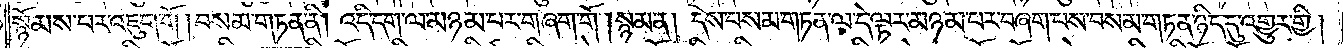སྙོམས་པར་འཇུག་གོ །བསམ་གཏན་ནི། འདི་དག་ལ་མཉམ་པར་གཞག་གོ། སྙམ་ན། དེས་བསམ་གཏན་ལ་དེ་ལྟར་མཉམ་པར་གཞག་པས་བསམ་གཏན་ཉིད་དུ་འགྱུར་གྱི།
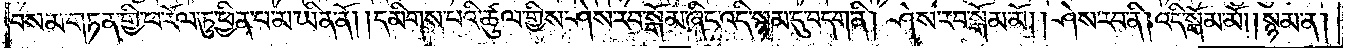བསམ་གཏན་གྱི་ཕ་རོལ་ཏུ་ཕྱིན་པ་མ་ཡིན་ནོ། །དམིགས་པའི་ཚུལ་གྱིས་ཤེས་རབ་སྒོམ་ཞིང་འདི་སྙམ་དུ་བདག་ནི། ཤེས་རབ་སྒོམ་མོ། །ཤེས་རབ་ནི། འདི་སྒོམ་མོ། །སྙམ་ན།
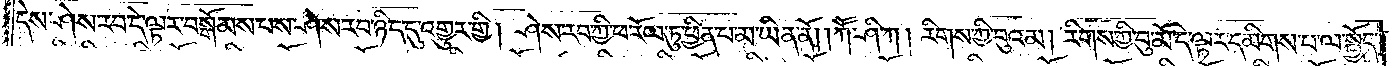དེས་ཤེས་རབ་དེ་ལྟར་བསྒོམས་པས་ཤེས་རབ་ཉིད་དུ་འགྱུར་གྱི། ཤེས་རབ་ཀྱི་ཕ་རོལ་ཏུ་ཕྱིན་པ་མ་ཡིན་ནོ། །ཀཽ་ཤི་ཀ། རིགས་ཀྱི་བུའམ། རིགས་ཀྱི་བུ་མོ་དེ་ལྟར་དམིགས་པ་ལ་སྤྱོད་
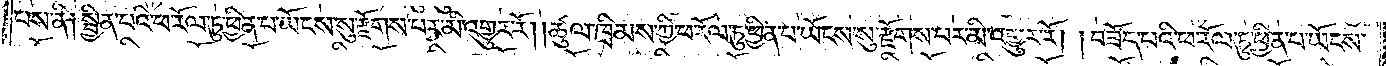པས་ནི༑ སྦྱིན་པའི་ཕ་རོལ་ཏུ་ཕྱིན་པ་ཡོངས་སུ་རྫོགས་པར་མི་འགྱུར་རོ། །ཚུལ་ཁྲིམས་ཀྱི་ཕ་རོལ་ཏུ་ཕྱིན་པ་ཡོངས་སུ་རྫོགས་པར་མི་འགྱུར་རོ། །བཟོད་པའི་ཕ་རོལ་ཏུ་ཕྱིན་པ་ཡོངས་
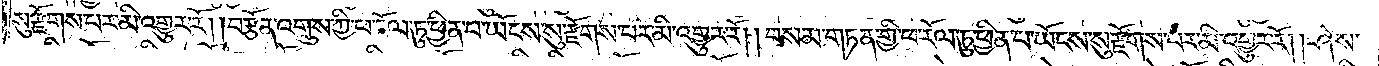སུ་རྫོགས་པར་མི་འགྱུར་རོ། །བརྩོན་འགྲུས་ཀྱི་ཕ་རོལ་ཏུ་ཕྱིན་པ་ཡོངས་སུ་རྫོགས་པར་མི་འགྱུར་རོ། །བསམ་གཏན་གྱི་ཕ་རོལ་ཏུ་ཕྱིན་པ་ཡོངས་སུ་རྫོགས་པར་མི་འགྱུར་རོ། །ཤེས་
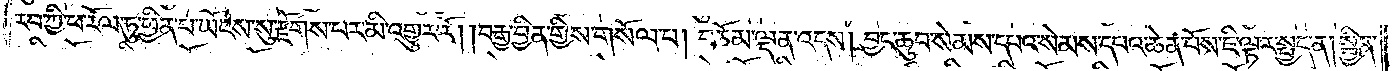རབ་ཀྱི་ཕ་རོལ་ཏུ་ཕྱིན་པ་ཡོངས་སུ་རྫོགས་པར་མི་འགྱུར་རོ། །བརྒྱ་བྱིན་གྱིས་གསོལ་པ། བཅོམ་ལྡན་འདས། བྱང་ཆུབ་སེམས་དཔའ་སེམས་དཔའ་ཆེན་པོས་ཇི་ལྟར་སྤྱད་ན། སྦྱིན་
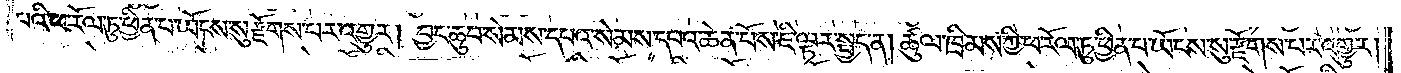པའི་ཕ་རོལ་ཏུ་ཕྱིན་པ་ཡོངས་སུ་རྫོགས་པར་འགྱུར། བྱང་ཆུབ་སེམས་དཔའ་སེམས་དཔའ་ཆེན་པོས་ཇི་ལྟར་སྤྱད་ན། ཚུལ་ཁྲིམས་ཀྱི་ཕ་རོལ་ཏུ་ཕྱིན་པ་ཡོངས་སུ་རྫོགས་པར་འགྱུར།
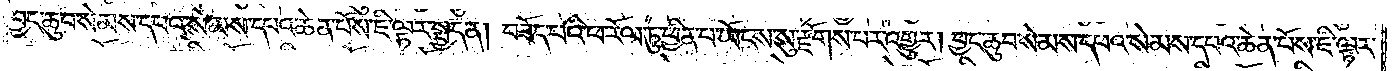བྱང་ཆུབ་སེམས་དཔའ་སེམས་དཔའ་ཆེན་པོས་ཇི་ལྟར་སྤྱད་ན། བཟོད་པའི་ཕ་རོལ་ཏུ་ཕྱིན་པ་ཡོངས་སུ་རྫོགས་པར་འགྱུར། བྱང་ཆུབ་སེམས་དཔའ་སེམས་དཔའ་ཆེན་པོས་ཇི་ལྟར་
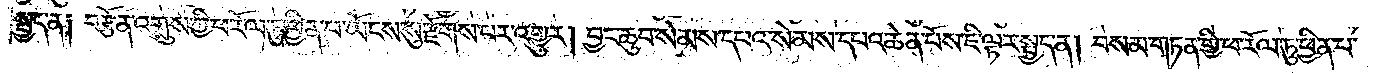སྤྱད་ན༑ བརྩོན་འགྲུས་ཀྱི་ཕ་རོལ་ཏུ་ཕྱིན་པ་ཡོངས་སུ་རྫོགས་པར་འགྱུར། བྱང་ཆུབ་སེམས་དཔའ་སེམས་དཔའ་ཆེན་པོས་ཇི་ལྟར་སྤྱད་ན། བསམ་གཏན་གྱི་ཕ་རོལ་ཏུ་ཕྱིན་པ་
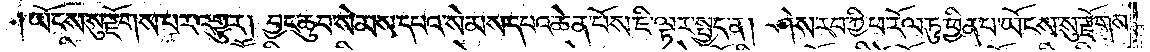ཡོངས་སུ་རྫོགས་པར་འགྱུར། བྱང་ཆུབ་སེམས་དཔའ་སེམས་དཔའ་ཆེན་པོས་ཇི་ལྟར་སྤྱད་ན། ཤེས་རབ་ཀྱི་ཕ་རོལ་ཏུ་ཕྱིན་པ་ཡོངས་སུ་རྫོགས་
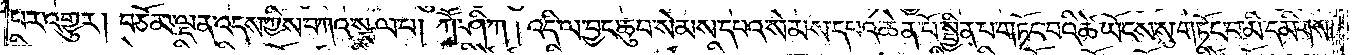པར་འགྱུར། བཅོམ་ལྡན་འདས་ཀྱིས་བཀའ་སྩལ་པ། ཀཽ་ཤི་ཀ། འདི་ལ་བྱང་ཆུབ་སེམས་དཔའ་སེམས་དཔའ་ཆེན་པོ་སྦྱིན་པ་གཏོང་བའི་ཚེ་ཡོངས་སུ་གཏོང་བ་མི་དམིགས།
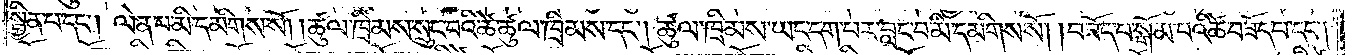སྦྱིན་པ་དང༌། ལེན་པ་མི་དམིགས་སོ། །ཚུལ་ཁྲིམས་སྲུང་བའི་ཚེ་ཚུལ་ཁྲིམས་དང༌། ཚུལ་ཁྲིམས་ཡང་དག་པར་བླང་བ་མི་དམིགས་སོ། །བཟོད་པ་སྒོམ་པའི་ཚེ་བཟོད་པ་དང༌།
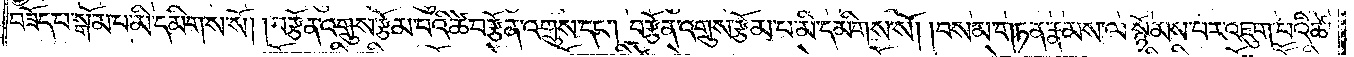བཟོད་པ་སྒོམ་པ་མི་དམིགས་སོ། །བརྩོན་འགྲུས་རྩོམ་པའི་ཚེ་བརྩོན་འགྲུས་དང༌། བརྩོན་འགྲུས་རྩོམ་པ་མི་དམིགས་སོ། །བསམ་གཏན་རྣམས་ལ་སྙོམས་པར་འཇུག་པའི་ཚེ་
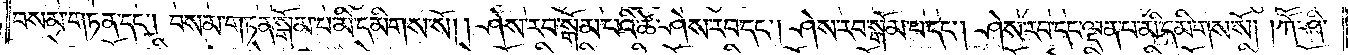བསམ་གཏན་དང༌། བསམ་གཏན་སྒོམ་པ་མི་དམིགས་སོ། །ཤེས་རབ་སྒོམ་པའི་ཚེ་ཤེས་རབ་དང༌། ཤེས་རབ་སྒོམ་པ་དང༌། ཤེས་རབ་དང་ལྡན་པ་མི་དམིགས་སོ། །ཀཽ་ཤི་
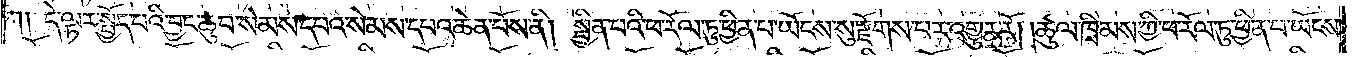ཀ། དེ་ལྟར་སྤྱོད་པའི་བྱང་ཆུབ་སེམས་དཔའ་སེམས་དཔའ་ཆེན་པོས་ནི། སྦྱིན་པའི་ཕ་རོལ་ཏུ་ཕྱིན་པ་ཡོངས་སུ་རྫོགས་པར་འགྱུར་རོ། །ཚུལ་ཁྲིམས་ཀྱི་ཕ་རོལ་ཏུ་ཕྱིན་པ་ཡོངས་
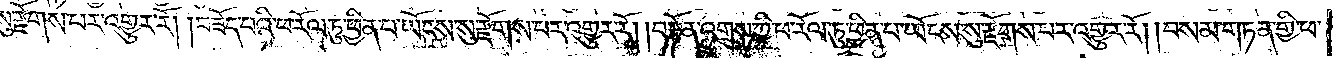སུ་རྫོགས་པར་འགྱུར་རོ། །བཟོད་པའི་ཕ་རོལ་ཏུ་ཕྱིན་པ་ཡོངས་སུ་རྫོགས་པར་འགྱུར་རོ། །བརྩོན་འགྲུས་ཀྱི་ཕ་རོལ་ཏུ་ཕྱིན་པ་ཡོངས་སུ་རྫོགས་པར་འགྱུར་རོ། །བསམ་གཏན་གྱི་ཕ་
